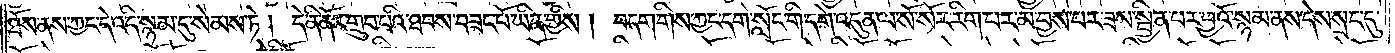ཐོས་ནས་ཀྱང་དེ་འདི་སྙམ་དུ་སེམས་ཏེ། དེ་ནི་ནོར་གྲུབ་པའི་ཐབས་བཟང་པོ་ཡིན་གྱིས། བདག་གིས་ཀྱང་དགེ་སློང་གི་དགེ་འདུན་ལ་སོ་སོར་རིག་པར་མ་བྱས་པར་ཟས་སྦྱིན་པར་བྱའོ་སྙམ་ནས་དེས་སྲང་དུ་
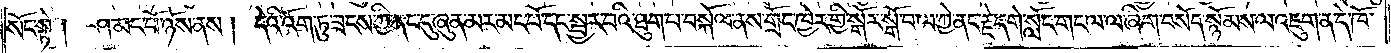སོང་སྟེ། ཤ་མང་པོ་ཉོས་ནས། དེའི་འོག་ཏུ་ཟངས་ཀྱི་ནང་དུ་ཞུན་མར་མང་པོ་དང་སྦྱར་བའི་ཐུག་པ་བསྐོལ་ནས་གྲོང་ཁྱེར་གྱི་སྒོར་སྒོ་བ་ལ་ཀྱེ་ནང་རྗེ་དགེ་སློང་གང་ལ་ལ་ཞིག་བསོད་སྙོམས་ལ་འཇུག་ན་དེ་ཁོ་
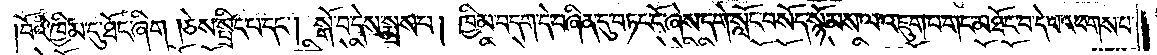བོའི་ཁྱིམ་དུ་ཐོང་ཞིག །ཅེས་སྤྲིང་པ་དང༌། སྒོ་བ་དེས་སྨྲས་པ། ཁྱིམ་བདག་དེ་བཞིན་དུ་བཏང་ངོ་ཞེས་དགེ་སློང་བསོད་སྙོམས་ལ་འཇུག་པ་གང་མཐོང་བ་དེ་ལ་འཕགས་པ་
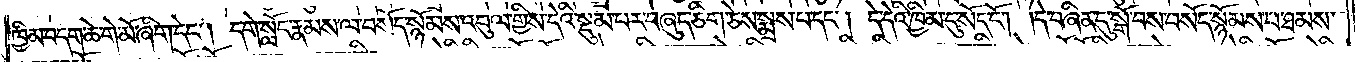ཁྱིམ་བདག་ཆེ་གེ་མོ་ཞིག་དེང༌། དགེ་སློང་རྣམས་ལ་བསོད་སྙོམས་འབུལ་གྱིས་དེའི་སྡུམ་པར་བཞུད་ཅིག་ཅེས་སྨྲས་པ་དང༌། དེ་དེའི་ཁྱིམ་དུ་སོང་ངོ༌། །དེ་བཞིན་དུ་སྒོ་བས་བསོད་སྙོམས་པ་ཐམས་
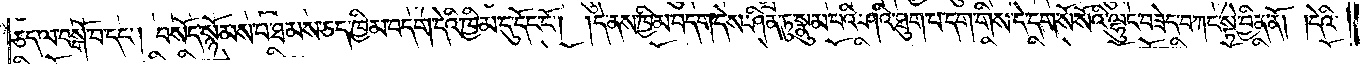ཅད་ལ་བསྒོ་བ་དང༌། བསོད་སྙོམས་པ་ཐམས་ཅད་ཁྱིམ་བདག་དེའི་ཁྱིམ་དུ་དོང་ངོ༌། །དེ་ནས་ཁྱིམ་བདག་དེས་ཤིན་ཏུ་སྣུམ་པའི་ཤའི་ཐུག་པ་དག་གིས་དེ་དག་སོ་སོའི་ལྷུང་བཟེད་བཀང་སྟེ་བྱིན་ནོ། །དེའི་
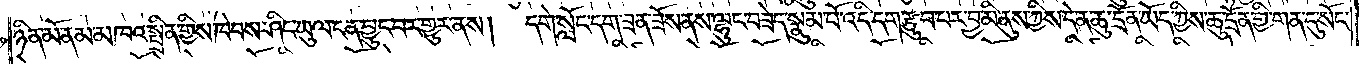ཉིན་མོ་ནམ་མཁའ་སྤྲིན་གྱིས་ཁེབས་ཤིང་ཡུལ་ངན་བྱུང་བར་གྱུར་ནས། དགེ་སློང་དག་ཟན་ཟོས་ནས་ལྷུང་བཟེད་སྣུམ་པོ་འདི་དག་རྩུབ་པར་བྱ་མི་ནུས་ཀྱིས་དེ་ན་ཆུ་དྲོན་ཡིད་ཀྱིས་ཆུ་དྲོན་གྱི་གན་དུ་སོང་
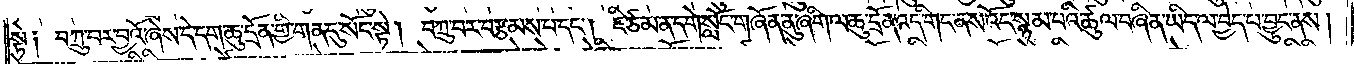སྟེ༑ བཀྲུ་བར་བྱའོ་ཞེས་དེ་དག་ཆུ་དྲོན་གྱི་གན་དུ་སོང་སྟེ། བཀྲུ་བར་བརྩམས་པ་དང༌། ཇི་ཙམ་ན་དགེ་སློང་གཞོན་ནུ་ཞིག་ལ་ཆུ་དྲོན་འདི་གང་ནས་འོང་སྙམ་པའི་ཚུལ་བཞིན་ཡིད་ལ་བྱེད་པ་བྱུང་ནས།
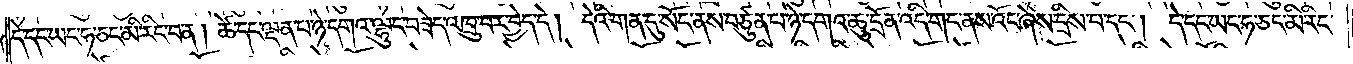དེ་དང་ཡང་ཧ་ཅང་མི་རིང་བ་ན། ཚེ་དང་ལྡན་པ་ཉེ་དགའ་ལྷུང་བཟེད་འཁྲུ་བར་བྱེད་དེ། དེའི་གན་དུ་སོང་ནས་བཙུན་པ་ཉེ་དགའ་ཆུ་དྲོན་འདི་གང་ནས་འོང་ཞེས་དྲིས་པ་དང༌། དེ་དང་ཡང་ཧ་ཅང་མི་རིང་
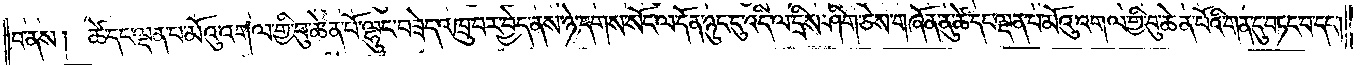བ་ནས། ཚེ་དང་ལྡན་པ་མོའུ་འགལ་གྱི་བུ་ཆེན་པོ་ལྷུང་བཟེད་འཁྲུ་བར་བྱེད་ནས་ཉེ་དགས་སོང་ལ་དོན་ཉུང་ངུ་འདི་ལ་དྲིས་ཤིག་ཅེས་གཞོན་ནུ་ཚེ་དང་ལྡན་པ་མོའུ་འགལ་གྱི་བུ་ཆེན་པོའི་གན་དུ་བཏང་བ་དང༌།
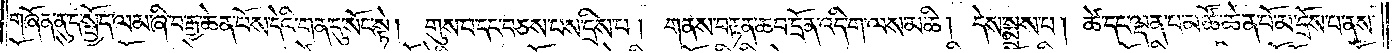གཞོན་ནུ་དེ་སྤྱོད་ལམ་ཞི་བ་རྒྱ་ཆེན་པོས་དེའི་གན་དུ་སོང་སྟེ།  གུས་པ་དང་བཅས་པས་དྲིས་པ། གནས་བརྟན་ཆབ་དྲོན་འདི་ག་ལས་མཆི། དེས་སྨྲས་པ། ཚེ་དང་ལྡན་པ་མཚོ་ཆེན་པོ་མ་དྲོས་པ་ནས་
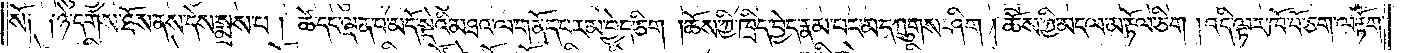སོ༑ ༑ཉེ་དགས་ཐོས་ནས་དེས་སྨྲས་པ། ཚེ་དང་ལྡན་པ་མདོ་སྡེའི་མཐའ་ལ་གནོད་པར་མ་བྱེད་ཅིག །ཆོས་ཀྱི་ཁྲིད་བྱེད་རྣམ་པར་མ་དཀྲུགས་ཤིག །ཆོས་ཀྱི་མངལ་མ་རྟོལ་ཅིག །འདི་ལྟར་ཁོ་བོ་ཅག་ལ་རྟོག་
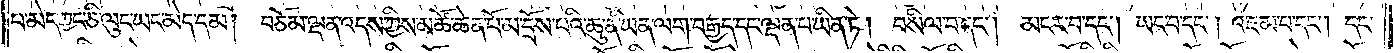པ་མེད་ཀྱང་ཅི་ལུང་ཡང་མེད་དམ། བཅོམ་ལྡན་འདས་ཀྱིས་མཚོ་ཆེན་པོ་མ་དྲོས་པའི་ཆུ་ནི་ཡན་ལག་བརྒྱད་དང་ལྡན་པ་ཡིན་ཏེ། བསིལ་བ་དང༌། མངར་བ་དང༌། ཡང་བ་དང༌། འཇམ་པ་དང༌། དང་
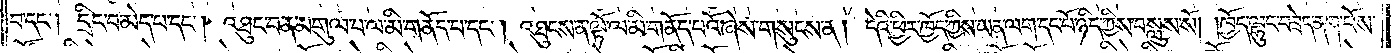བ་དང༌། དྲི་ང་བ་མེད་པ་དང༌། འཐུང་བ་ན་མགུལ་པ་ལ་མི་གནོད་པ་དང༌། འཐུངས་ན་ལྟོ་ལ་མི་གནོད་པའོ་ཞེས་གསུངས་ན། དེའི་ཕྱིར་ཁྱོད་ཀྱིས་ཡན་ལག་དང་པོ་ཉིད་ཀྱིས་བསླུས་སོ། །ཁྱོད་ལྷུང་བཟེད་ནག་པོས་
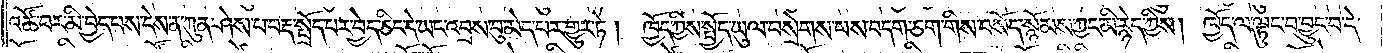འཚོ་བར་མི་བྱེད་པས་དེས་ན་ཀུན་ཤེས་པ་བརྡ་སྤྲོད་པར་བྱེད་ཅིང་དེ་ཡང་འབྲས་བུ་མེད་པར་གྱུར་ཏེ། ཁྱོད་ཀྱིས་སྤྱོད་ཡུལ་བསྲེགས་པས་བདག་ཅག་གིས་བསོད་སྙོམས་ཀྱང་མི་རྙེད་ཀྱིས། ཁྱོད་ལ་ལྟུང་བ་བྱུང་བ་དེ་
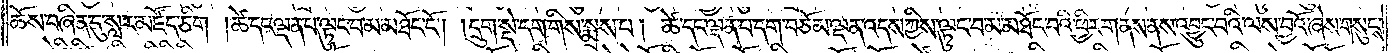ཆོས་བཞིན་དུ་སླར་མཛོད་ཅིག །ཚེ་དང་ལྡན་པ་ལྟུང་བ་མ་མཐོང་ངོ༌། །དྲུག་སྡེ་དག་གིས་སྨྲས་པ། ཚེ་དང་ལྡན་པ་དག་བཅོམ་ལྡན་འདས་ཀྱིས་ལྟུང་བ་མ་མཐོང་བའི་ཕྱིར་གནས་ནས་འབྱུང་བའི་ལས་བྱའོ་ཞེས་གསུངས་
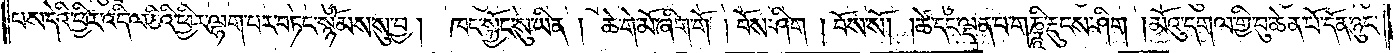པས་དེའི་ཕྱིར་འདི་ལ་ཅིའི་ཕྱིར་ལྷག་པར་བཏང་སྙོམས་སུ་བྱ།  ཁང་སྐྱོང་སུ་ཡིན། ཆེ་གེ་མོ་ཞིག་གོ །བོས་ཤིག །བོས་སོ། །ཚེ་དང་ལྡན་པ་གཎྜཱི་རྡུངས་ཤིག །མོའུ་དགལ་གྱི་བུ་ཆེན་པོ་དོན་ཉུང་
